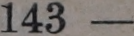143
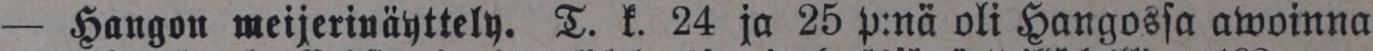— Hangon meijerinäyttely. T. k. 24 ja 25 p:nä oli Hangossa awoinna
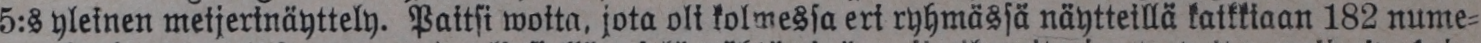5:s yleinen metjerinäyttely. Paitsi woita, jota oli kolmessa eri ryhmässä näytteillä kaikkiaan 182 nume-
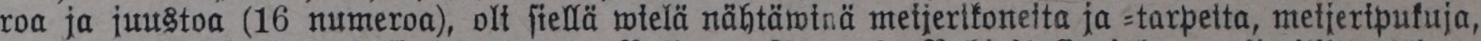roa ja juustoa (16 numeroa), oli siellä wielä nähtäwinä meijerikoneita ja -tarpeita, metjeripukuja,
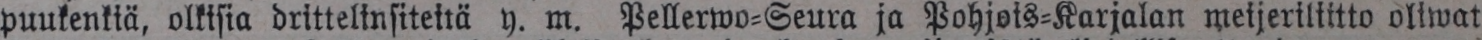puukenkiä, olkisia drittelinsiteitä y. m. Pellerwo-Seura ja Pohjois-Karjalan meijeriliitto oliwat
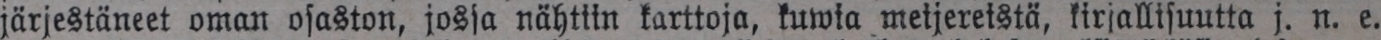järjestäneet oman osaston, jossa nähtiin karttoja, kuwia meijereistä, kirjallisuutta j. n. e.
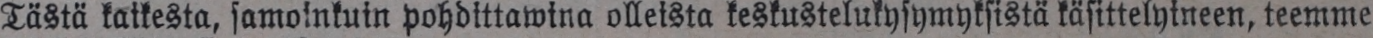Tästä kaikesta, samoinkuin pohdittawina olleista keskustelukysymyksistä käsittelytneen, teemme
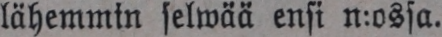lähemmin selwää ensi n:ossa.
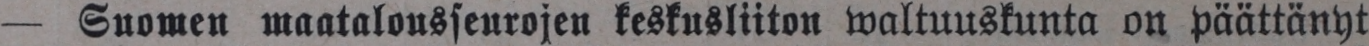— Suomen maatalousseurojen keskusliiton waltuuskunta on päättänyt
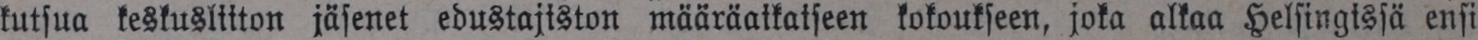kutsua keskusliiton jäsenet edustajiston määräaikaiseen kokoukseen, joka alkaa Helsingissä ensi
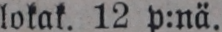lokak. 12 p:nä.
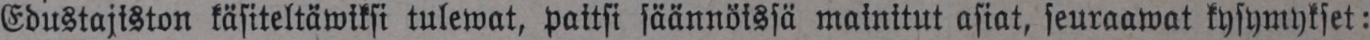Edustajiston käsiteltäwiksi tulewat, paitsi säännöissä mainitut asiat, seuraawat kysymykset:
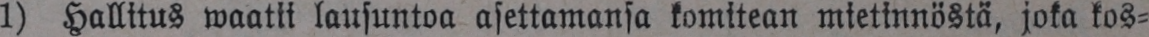1) Hallitus waatii lausuntoa asettamansa komitean mietinnöstä, joka kos-
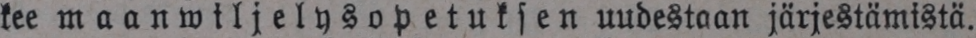kee maanwiljelysopetuksen uudestaan järjestämistä.
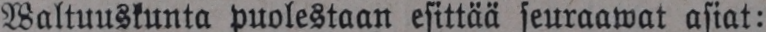Waltuuskunta puolestaan esittää seuraawat asiat:
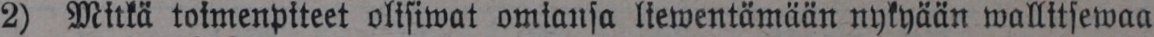2) Mitkä toimenpiteet olisiwat omiansa liewentämään nykyään wallitsewaa
